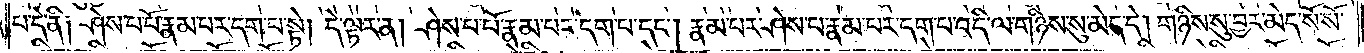པ་དེ་ནི༑ ཤེས་པ་པོ་རྣམ་པར་དག་པ་སྟེ། དེ་ལྟར་ན། ཤེས་པ་པོ་རྣམ་པར་དག་པ་དང༌། རྣམ་པར་ཤེས་པ་རྣམ་པར་དག་པ་འདི་ལ་གཉིས་སུ་མེད་དེ། གཉིས་སུ་བྱར་མེད་སོ་སོ་
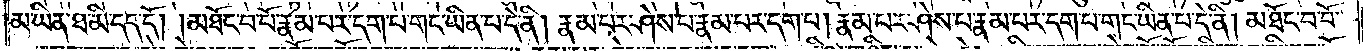མ་ཡིན་ཐ་མི་དད་དོ། །མཐོང་བ་པོ་རྣམ་པར་དག་པ་གང་ཡིན་པ་དེ་ནི། རྣམ་པར་ཤེས་པ་རྣམ་པར་དག་པ། རྣམ་པར་ཤེས་པ་རྣམ་པར་དག་པ་གང་ཡིན་པ་དེ་ནི། མཐོང་བ་པོ་
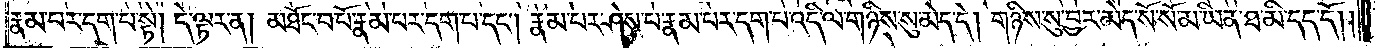རྣམ་པར་དག་པ་སྟེ། དེ་ལྟར་ན། མཐོང་བ་པོ་རྣམ་པར་དག་པ་དང༌། རྣམ་པར་ཤེས་པ་རྣམ་པར་དག་པ་འདི་ལ་གཉིས་སུ་མེད་དེ། གཉིས་སུ་བྱར་མེད་སོ་སོ་མ་ཡིན་ཐ་མི་དད་དོ། །
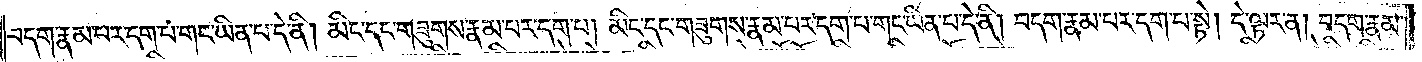བདག་རྣམ་པར་དག་པ་གང་ཡིན་པ་དེ་ནི། མིང་དང་གཟུགས་རྣམ་པར་དག་པ། མིང་དང་གཟུགས་རྣམ་པར་དག་པ་གང་ཡིན་པ་དེ་ནི། བདག་རྣམ་པར་དག་པ་སྟེ། དེ་ལྟར་ན། བདག་རྣམ་
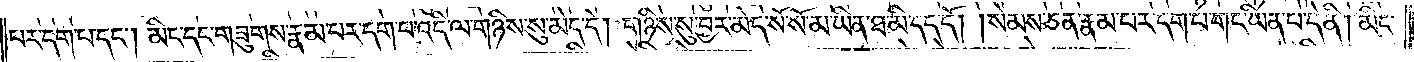པར་དག་པ་དང༌། མིང་དང་གཟུགས་རྣམ་པར་དག་པ་འདི་ལ་གཉིས་སུ་མེད་དེ། གཉིས་སུ་བྱར་མེད་སོ་སོ་མ་ཡིན་ཐ་མི་དད་དོ། །སེམས་ཅན་རྣམ་པར་དག་པ་གང་ཡིན་པ་དེ་ནི། མིང་
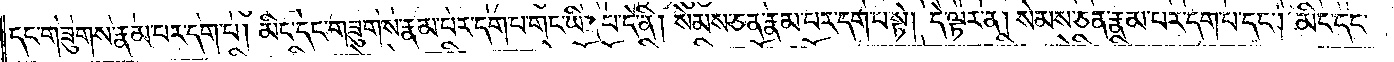དང་གཟུགས་རྣམ་པར་དག་པ། མིང་དང་གཟུགས་རྣམ་པར་དག་པ་གང་ཡིན་པ་དེ་ནི། སེམས་ཅན་རྣམ་པར་དག་པ་སྟེ། དེ་ལྟར་ན། སེམས་ཅན་རྣམ་པར་དག་པ་དང༌། མིང་དང་
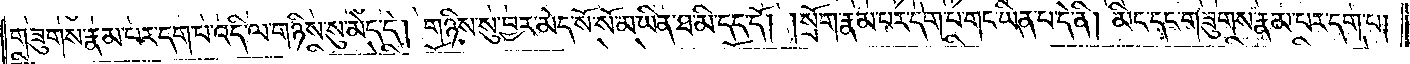གཟུགས་རྣམ་པར་དག་པ་འདི་ལ་གཉིས་སུ་མེད་དེ། གཉིས་སུ་བྱར་མེད་སོ་སོ་མ་ཡིན་ཐ་མི་དད་དོ། །སྲོག་རྣམ་པར་དག་པ་གང་ཡིན་པ་དེ་ནི། མིང་དང་གཟུགས་རྣམ་པར་དག་པ།
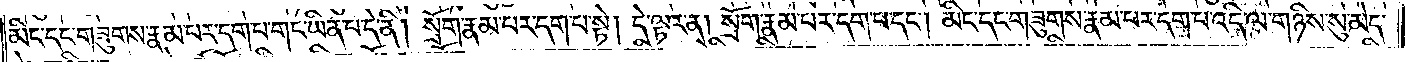མིང་དང་གཟུགས་རྣམ་པར་དག་པ་གང་ཡིན་པ་དེ་ནི། སྲོག་རྣམ་པར་དག་པ་སྟེ། དེ་ལྟར་ན། སྲོག་རྣམ་པར་དག་པ་དང༌། མིང་དང་གཟུགས་རྣམ་པར་དག་པ་འདི་ལ་གཉིས་སུ་མེད་
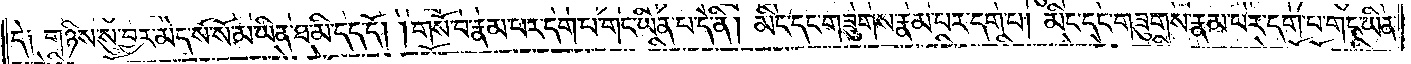དེ༑ གཉིས་སུ་བྱར་མེད་སོ་སོ་མ་ཡིན་ཐ་མི་དད་དོ། །གསོ་བ་རྣམ་པར་དག་པ་གང་ཡིན་པ་དེ་ནི། མིང་དང་གཟུགས་རྣམ་པར་དག་པ། མིང་དང་གཟུགས་རྣམ་པར་དག་པ་གང་ཡིན་
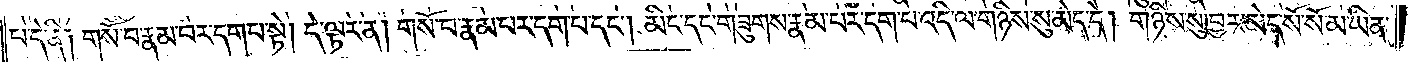པ་དེ་ནི༑ གསོ་བ་རྣམ་པར་དག་པ་སྟེ། དེ་ལྟར་ན། གསོ་བ་རྣམ་པར་དག་པ་དང༌། མིང་དང་གཟུགས་རྣམ་པར་དག་པ་འདི་ལ་གཉིས་སུ་མེད་དེ། གཉིས་སུ་བྱར་མེད་སོ་སོ་མ་ཡིན་
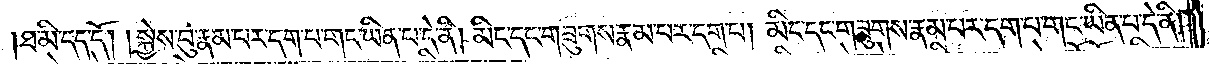ཐ་མི་དད་དོ། །སྐྱེས་བུ་རྣམ་པར་དག་པ་གང་ཡིན་པ་དེ་ནི། མིང་དང་གཟུགས་རྣམ་པར་དག་པ། མིང་དང་གཟུགས་རྣམ་པར་དག་པ་གང་ཡིན་པ་དེ་ནི།
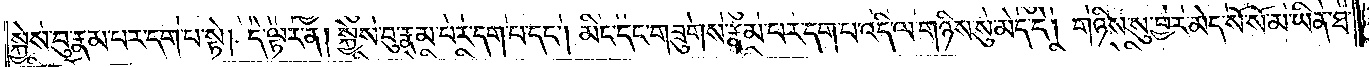སྐྱེས་བུ་རྣམ་པར་དག་པ་སྟེ། དེ་ལྟར་ན། སྐྱེས་བུ་རྣམ་པར་དག་པ་དང༌། མིང་དང་གཟུགས་རྣམ་པར་དག་པ་འདི་ལ་གཉིས་སུ་མེད་དེ། གཉིས་སུ་བྱར་མེད་སོ་སོ་མ་ཡིན་ཐ་
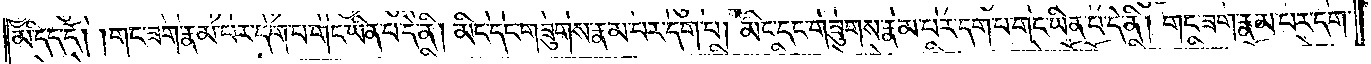མི་དད་དོ། །གང་ཟག་རྣམ་པར་དག་པ་གང་ཡིན་པ་དེ་ནི། མིང་དང་གཟུགས་རྣམ་པར་དག་པ། མིང་དང་གཟུགས་རྣམ་པར་དག་པ་གང་ཡིན་པ་དེ་ནི། གང་ཟག་རྣམ་པར་དག་
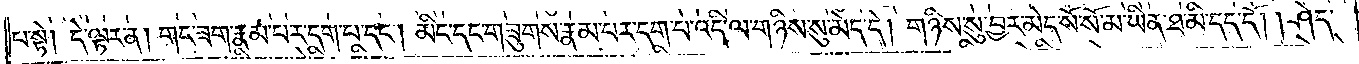པ་སྟེ། དེ་ལྟར་ན། གང་ཟག་རྣམ་པར་དག་པ་དང༌། མིང་དང་གཟུགས་རྣམ་པར་དག་པ་འདི་ལ་གཉིས་སུ་མེད་དེ། གཉིས་སུ་བྱར་མེད་སོ་སོ་མ་ཡིན་ཐ་མི་དད་དོ། །ཤེད་
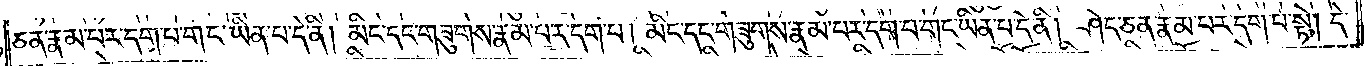ཅན་རྣམ་པར་དག་པ་གང་ཡིན་པ་དེ་ནི། མིང་དང་གཟུགས་རྣམ་པར་དག་པ། མིང་དང་གཟུགས་རྣམ་པར་དག་པ་གང་ཡིན་པ་དེ་ནི། ཤེད་ཅན་རྣམ་པར་དག་པ་སྟེ། དེ་
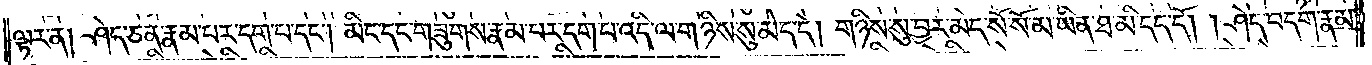ལྟར་ན། ཤེད་ཅན་རྣམ་པར་དག་པ་དང༌། མིང་དང་གཟུགས་རྣམ་པར་དག་པ་འདི་ལ་གཉིས་སུ་མེད་དེ། གཉིས་སུ་བྱར་མེད་སོ་སོ་མ་ཡིན་ཐ་མི་དད་དོ། །ཤེད་བདག་རྣམ་
